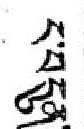ང་བདུན་
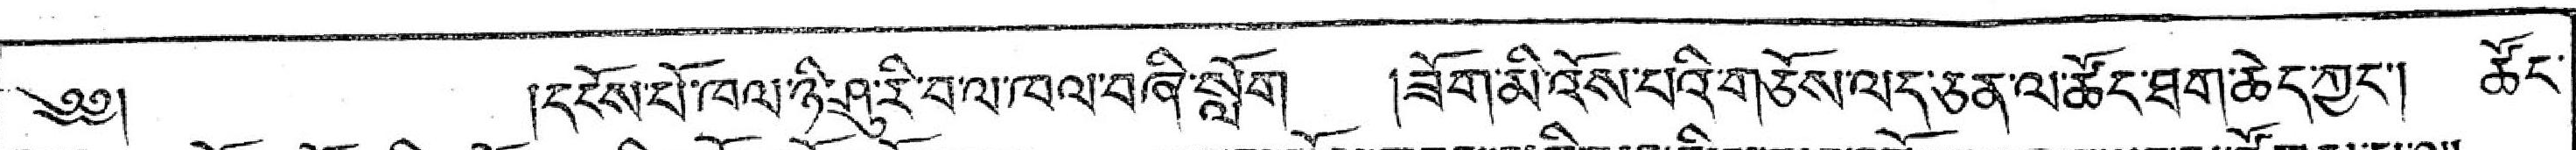༄༅།  །དངོས་པོ་ཁལ་ཉི་ཤུ་རི་བ་ལ་ཁལ་བཞི་སློག །ཟོག་མི་འོས་པའི་གཅོས་ལད་ཅན་ལ་ཚོང་ཐག་ཆེད་ཀྱང་། ཚོང་
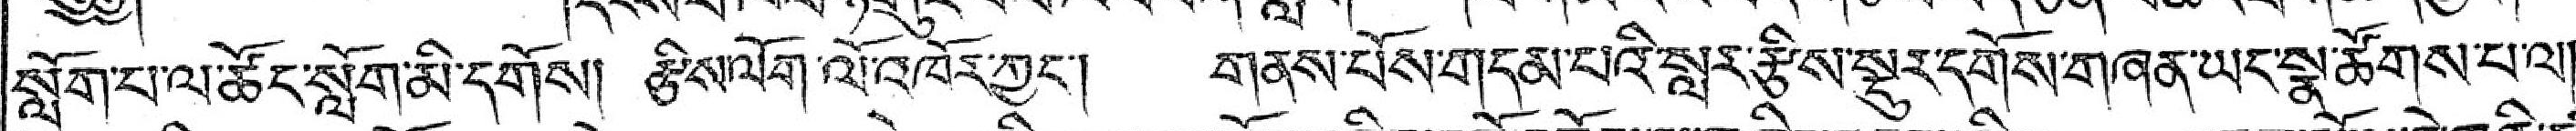སློག་པ་ལ་ཚོང་སློག་མི་དགོས། རྩིས་ལོག་ལོ་འཁོར་ཀྱང་། གནས་པོས་གདམ་པའི་སླར་རྩིས་སྡུར་དགོས་གཞན་ཡང་སྣ་ཚོགས་པ་ལ།
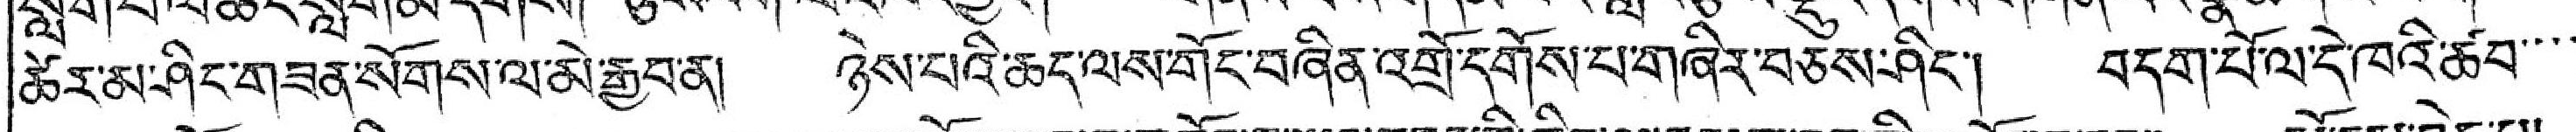ཚེར་མ་ཤིང་གཟན་སོགས་ལ་མེ་རྒྱབ་ན། ཉེས་པའི་ཆད་ལས་གོང་བཞིན་འགྲོ་དགོས་པ་གཞིར་བཅས་ཤིང་། བདག་པོ་ལ་དེ་ཁའི་ཚབ་་་་
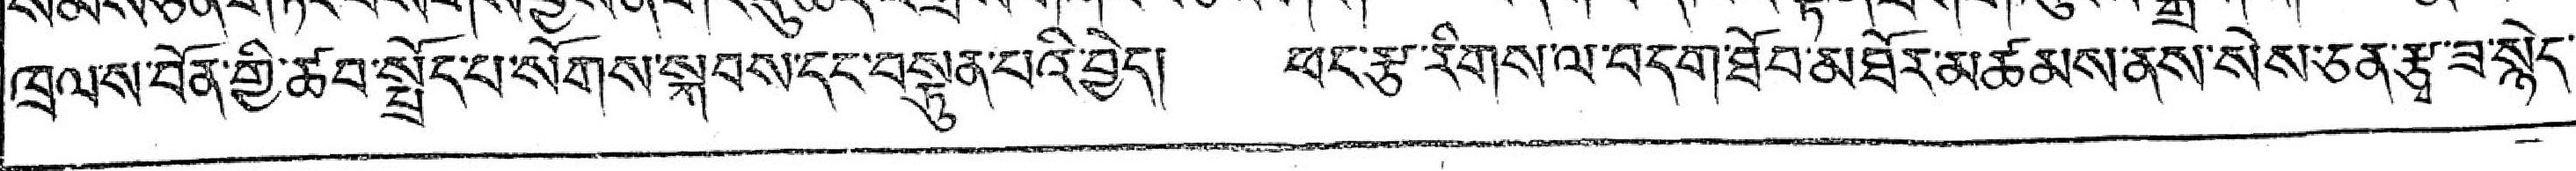ཁྲལ་ས་བོན་གྱི་ཚབ་སྤྲོད་པ་སོགས་སྐབས་དང་བསྟུན་པའི་བྱེད། ཕང་རྩ་རིགས་ལ་བདག་ཐོབ་མཐོར་མཚམས་ནས་སེས་ཅན་རྩྭ་ཟ་སྙེད་་
